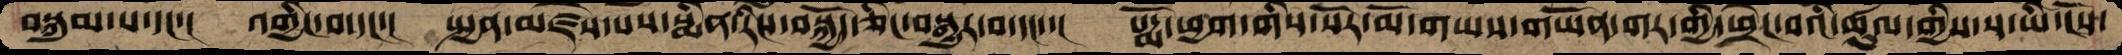བསྐུམ་པ་དང་།  འགྱིང་བ་དང་།  སྤྱན་མཛེས་པས་སྨིན་རིང་བསྐྱོད་ཅིང་བསྒྱུར་བ་དང་་།  སདྨོ་ཕྱག་གིས་སོར་མོ་གཡས་གཡོན་གར་གྱི་ཕྲེང་བའི་ཚུལ་གྱིས་ས་ཡི་ངོས་
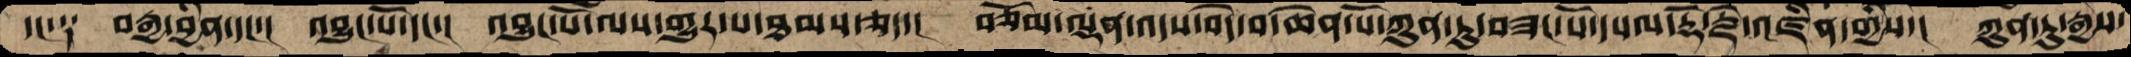དང་༑  བརྒྱ་བྱིན་དང་།  འབྱུང་པོ་དང་།  འབྱུང་པོ་ལས་གྱུར་པ་ཐམས་ཅད་།  བཅོམ་ལྡན་འདས་བདེ་བ་ཆེན་པོ་ཀུན་ཏུ་བཟང་པོ་དཔལ་རྡོ་རྗེ་འཛིན་གྱིས་།  ཀུན་ཏུ་རྒྱས་
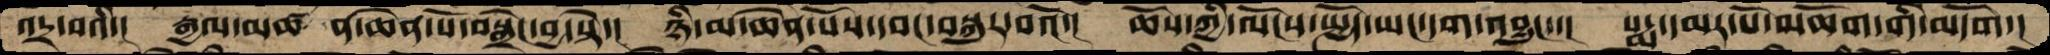འདྲ་བའི་།  རྒྱལ་མཚ ན་ཆེན་པོ་བསྒྲེང་བྱ་སྟེ་།  ཉི་མ་ཆེན་པོས་དབང་བསྐུར་བའོ་།  ཆོས་ཀྱི་ལོངས་སྤྱོད་ཡང་དག་འབྱུང་་།  པདྨ་དམར་པོ་མཆོག་གི་མདོག་།
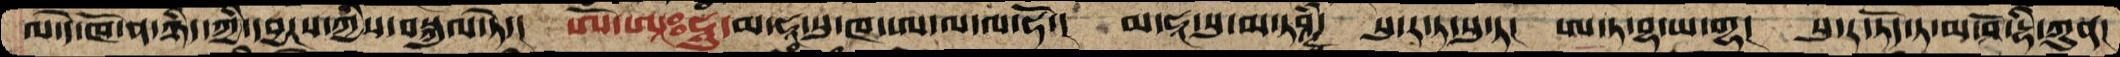ལ་དེ་ཁོ་ན་ཉིད་ཀྱི་དབྱངས་ཀྱིས་བསྐུལ་ཏེ་།  ཨོཾ་ཨཱཿཧཱུཾ་མ་ཧཱ་སུ་ཁ་ཨ་ལ་ལ་ཧོ་།  མ་ཧཱ་སུ་མ་ཏཤྚི་  སུ་ར་ཏ་སུ་ཏ།  ཨ་ཏ་བྷ་ཡ་གྷ།  སུ་ར་ཏོད་ཏ་མ་ཤོ་དྷི་ཀུན།
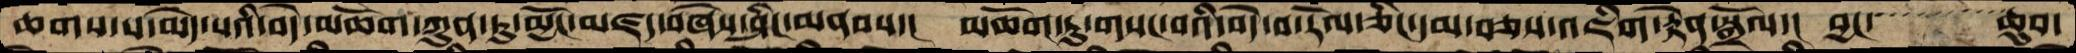ཆགས་པ་མེད་པའི་བདེ་མཆོག་ཀུན་ཏུ་མྱོང་མཛད་བཞེས་ཤིང་མནབས་།  མཆོག་ཏུ་གསང་བའི་བདེ་བ་རོལ་ཅིང་དམ་བཅས་འཇིག་རྟེན་སྒྲོལ་།  བྱང་   ཆུབ་
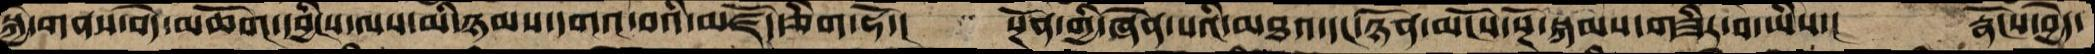སྐྱེ་གནས་བདེ་མཆོག་དབྱིངས་ལས་མི་ཉམས་དགའ་བའི་མཛོད་ཅིག་ཧོ་།  སྔོན་གྱི་ཞེན་པའི་མཐའ་དང་ཉོན་མོངས་སྔོ་སྐམས་གཟིར་བ་ཡིས་།  རྣོངས་བྱེད་
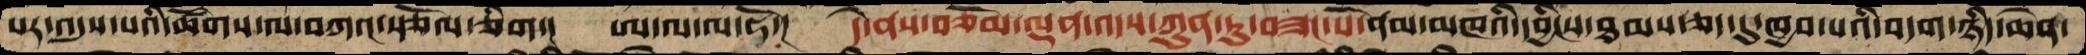པར་འདུས་པའི་ཚོགས་ལ་བཀའ་སྩོལ་ཅིག་།  ཨ་ལ་ལ་ཧོ་།  དེ་ནས་བཅོམ་ལྡན་འདས་ཀུན་ཏུ་བཟང་པོ་ནམ་མཁའི་དབྱིངས་་ཐམས་ཅད་དུ་ཁྱབ་པའི་བདག་ཉིད་ཆེན་
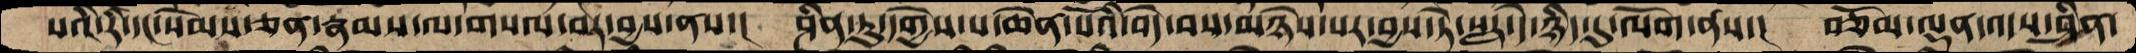པའི་རི་དང་སེམས་ཅན་རྣམས་ལ་གསལ་བར་བྱས་ནས་།  ཤིན་ཏུ་དགྱེས་པ་ཆེན་པོའི་བདེ་བས་མཉེས་པར་བྱས་ཏེ་སླར་དེ་ཉིད་དུ་ལོག་ནས་།  བཅོམ་ལྡན་འདས་ཤིན་
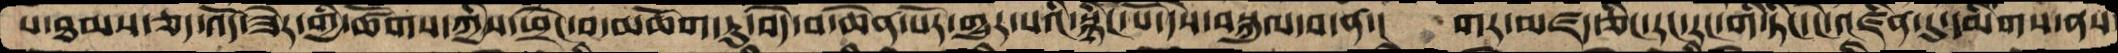པ་ཐམས་ཅད་འོད་ཟེར་གྱི་ཚོགས་ཀྱིས་ཕྲེང་བ་མཆོག་ཏུ་བདེ་བ་ཆེན་པོར་གྱུར་པའི་སྙིང་པོ་དེས་བསྐུལ་བ་ན་།  གར་མཛད་ཅིང་རང་རང་གི་ཏིང་ངེ་འཛིན་དུ་དམིགས་ནས་
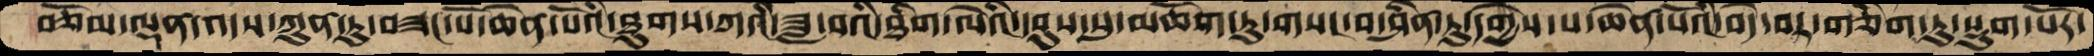བཅོམ་ལྡན་འདས་ཀུན་ཏུ་བཟང་པོ་ཆེན་པོའི་ཐུགས་ཀའི་ཟླ་བའི་ཐིག་ལེའི་དབུས་སུ་མཆོག་ཏུ་གསང་བ་ཤིན་ཏུ་དགྱེས་པ་ཆེན་པོའི་བདེ་བར་གཅིག་ཏུ་སྡུག་པོར་
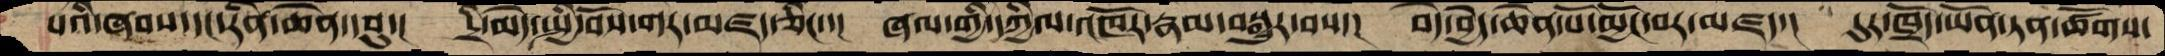པའི་ཞབས་དང་རིན་ཆེན་དབུ་།  དྲི་མེད་སྤྱི་བོས་གར་མཛད་ཅིང་་།  ཞལ་གྱི་དཀྱིལ་འཁོར་རྣམ་བསྒྱུར་བས་།  བདེ་བྱེད་ཆེན་པོ་མྱོང་བར་མཛད་།  དུར་ཁྲོད་ཡོན་ཏན་ཚོགས་
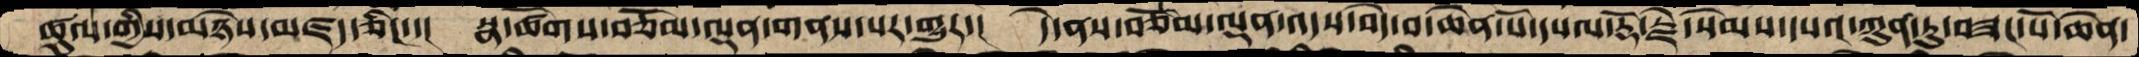ཚུལ་གྱིས་མཉེས་མཛད་ཅིང་་།  སྣ་ཚོགས་བཅོམ་ལྡན་གནས་པར་གྱུར་།  དེ་ནས་བཅོམ་ལྡན་འདས་བདེ་བ་ཆེན་པོ་དཔལ་རྡོ་རྗེ་སེམས་དཔའ་ཀུན་ཏུ་བཟང་པོ་ཆེན་
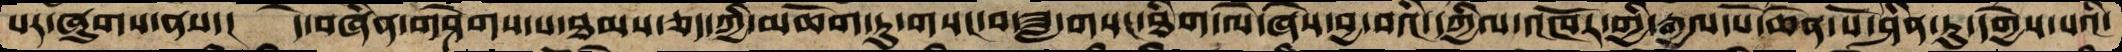པར་ཞུགས་ནས་།  དེ་བཞིན་གཤེགས་པ་ཐམས་ཅད་ཀྱི་མཆོག་ཏུ་གསང་བ་ཟླ་གསང་ཐིག་ལེ་ཞེས་བྱ་བའི་དཀྱིལ་འཁོར་གྱི་རྒྱལ་པོ་ཆེན་པོ་ཤིན་ཏུ་དགྱེས་པའི་
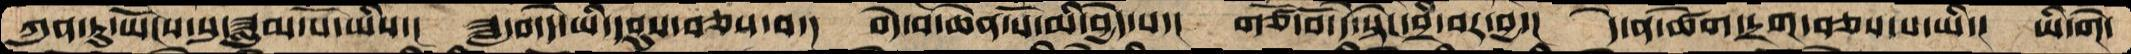ཀུན་ཏུ་ཡོངས་སུ་ཟླུམ་པོ་ཡིས་།  ཟླ་བ་དེ་ཡི་དབུས་བཅས་བ་།  བདེ་བ་ཆེན་པོ་མི་བྱེད་པ་།  གཙོ་བོ་དེ་སྟེང་བྲི་བར་བྱ་།  དེ་ནས་ཚེག་དྲག་བཅས་པ་ཡི་།  ཡི་གེ་
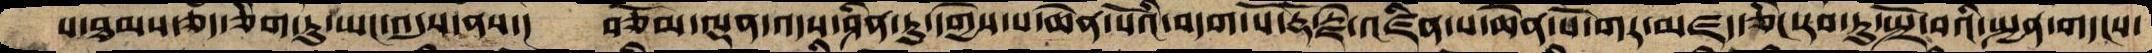པ་ཐམས་ཅད་ཅིག་ཏུ་ཡང་འདུས་ནས་།  བཅོམ་ལྡན་འདས་ཤིན་ཏུ་དགྱེས་པ་ཆེན་པོའི་བདག་པོ་རྡོ་རྗེ་འཛིན་པ་ཆེན་པོ་གར་མཛད་ཅིང་རབ་ཏུ་སྤྲོ་བའི་སྤྱན་གདངས་
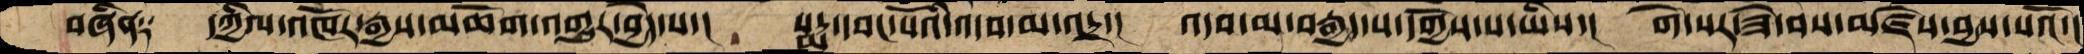བཞིན༑  དཀྱིལ་འཁོར་རྒྱས་མཆོག་འགྱུར་བྱེད་པ་།  པདྨ་དབང་པོའི་འདབ་མ་འདྲ་།  འདབ་མ་བརྒྱད་པ་དགྱེས་པ་ཡིས་།  གེ་སར་ཟེ་བས་མཛེས་བྱས་པའོ་།
